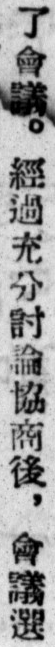了會議。經過充分討論協商後，會議選
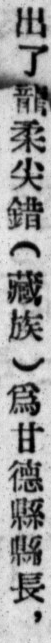出了龍柔尖錯（藏族）爲甘德縣縣長，
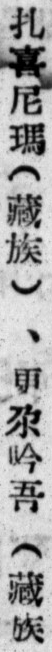扎喜尼瑪（藏族）、更尕吟吾（藏族
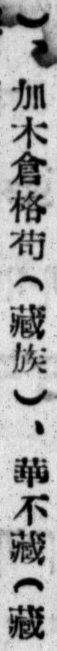）、加木倉格苟（藏族）、華不藏（藏
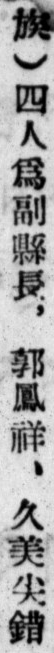族）四人爲副縣長，郭鳳祥、久美尖錯
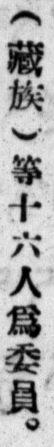（藏族）等十六人爲委員。
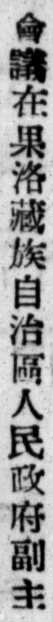會議在果洛藏族自治區人民政府副主
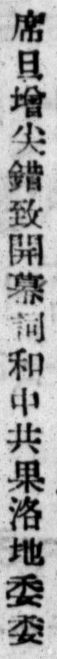席旦增尖錯致開幕詞和中共果洛地委委
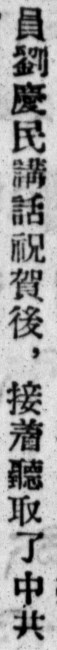員劉慶民講話祝賀後，接着聽取了中共
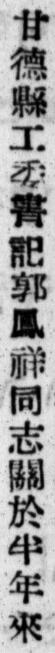甘德縣工委書記郭鳳祥同志關於半年來
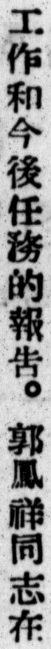工作和今後任務的報告。郭鳳祥同志在
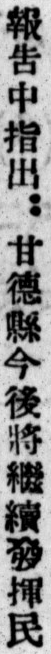報告中指出：甘德縣今後將繼續發揮民
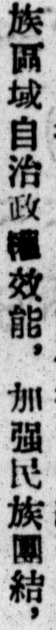族區域自治政權效能，加強民族團結，
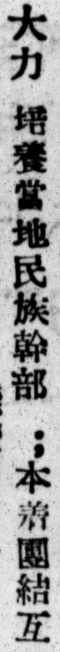大力 培養當地民族幹部 ；本着團結互
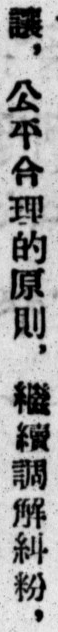讓，公平合理的原則，繼續調解糾紛，
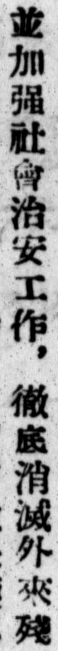並加強社會治安工作，徹底消滅外來殘
